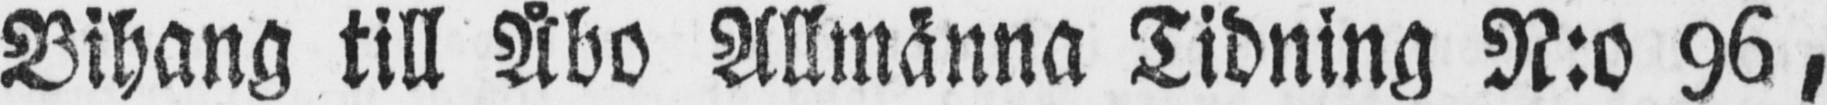Bihang till Åbo Allmänna Tidning N:o 96,
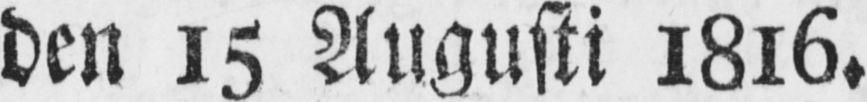den 15 Augusti 1816.
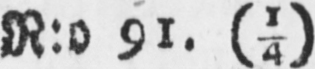N:o 91. (¼)
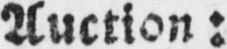Auction:
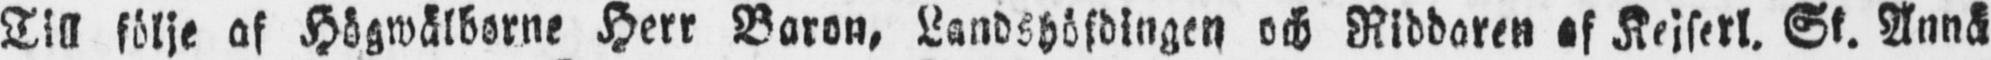Till följe af Högwälborne Herr Baron, Landshöfdingen och Riddaren af Kejserl. St. Annä
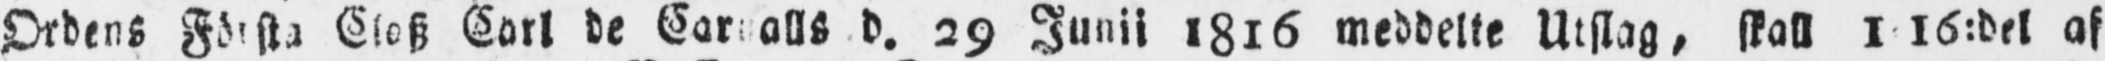Ordens Första Closz Carl de Car alls d. 29 Junii 1816 meddelte Utslag, skall 1 16:del af
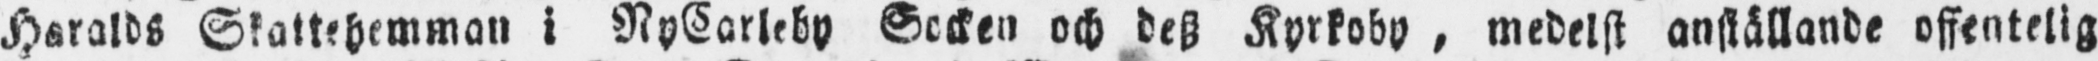Haralds Skattehemman i NyCarleby Socken och desz Kyrkoby, medelst anställande offentelig
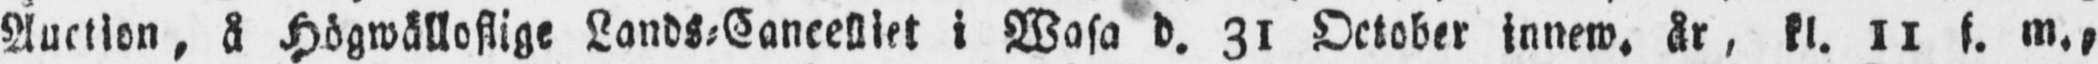Auction, å Högwälloflige Lands-Cancelliet i Wasa d. 31 October innew. år, kl. 11 f. m.,
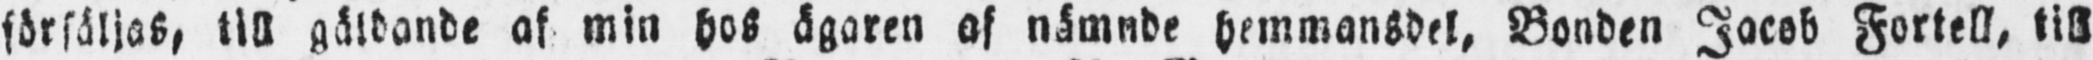försäljas, till gäldande af min hos ägaren af nämnde hemmansdel, Bonden Jacob Fortell, till
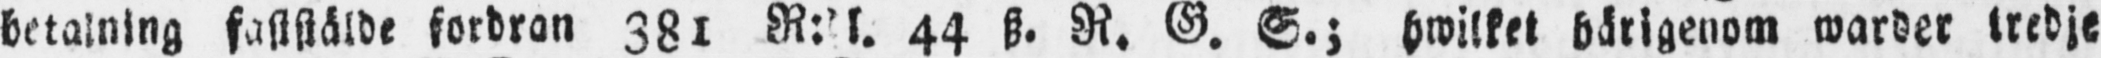betalning faststälde fordran 381 R:dl. 44 sz. R. G. S.; hwilket härigenom warder tredje
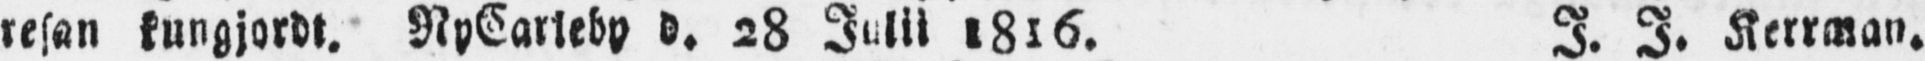resan kungjordt. NyCarleby d. 28 Julii 1816. I. I. Kerrman.
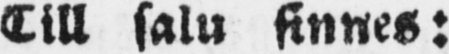Till salu finnes:
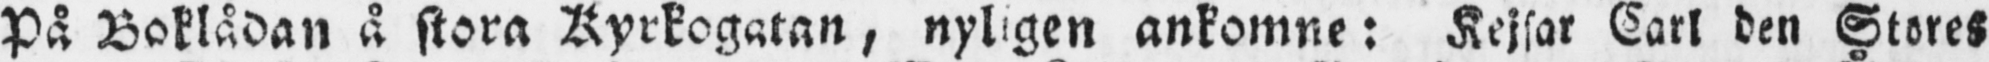På Boklådan å stora Kyrkogatan, nyligen ankomne: Kejsar Carl den Stores
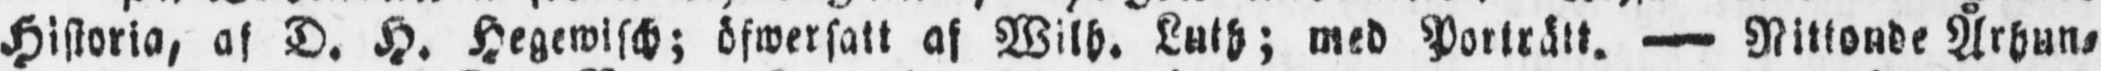Historia, af D. H. Hegewisch; öfwersatt af Wilh. Luth; med Porträtt. — Nittonde Århun-
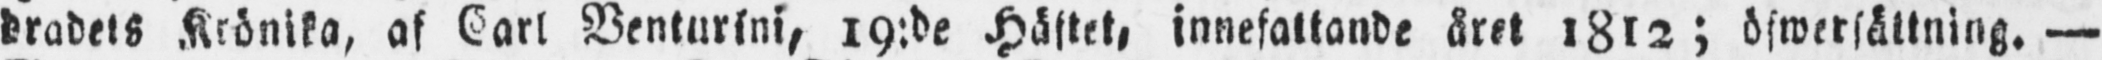dradets Krönika, af Carl Venturini, 19:de Häftet, innefattande året 1812 ; öfwersättning. —
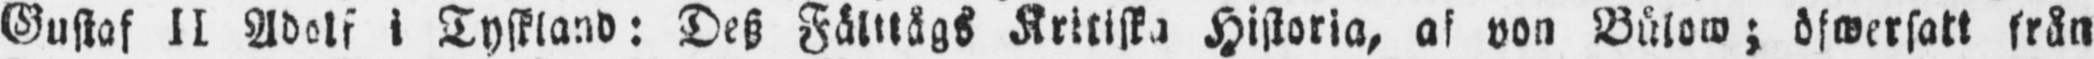Gustaf II Adolf i Tyskland: Desz Fälttågs Kritiska Historia, af von Bülow; öfwersatt från
